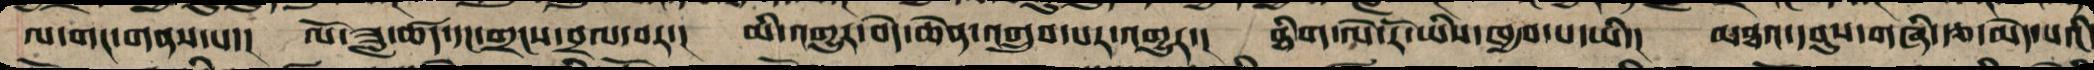ལ་གང་གནས་པ་། ལོ་ཟླ་ཚད་དང་གྲངས་བྲལ་བར་། མི་འགྱུར་བདེ་ཆེན་འགྲུབ་པར་འགྱུར་། ཐིག་ལེ་རོ་ཡིས་ཁྱབ་པ་ཡི་། མཐའ་དབུས་གཞི་རྩ་མེད་པའི
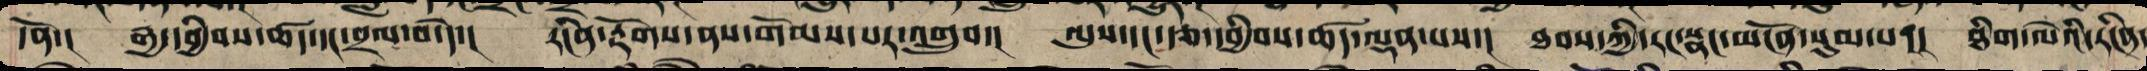དོན་། རྒྱ་དབྱིབས་ཚད་དང་བྲལ་བ་དེ་། རངིན་རྟོགས་ནས་གོམས་པར་འགྲུབ་། ལུས་དང་རྩ་དབྱིབས་ཚད་ལྡན་པས་། ཐབས་ཀྱི་རང་སྣང་མངོན་སུམ་པ་། ཐིག་ལེའི་རངིན་
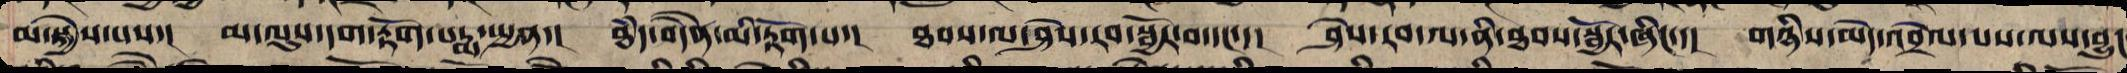མ་སྐྱེས་པས་། མ་ལུས་དག་རྟོགས་པདྨ་སྤྱན་། ཐཾད་བདཻན་མི་རྟོག་པ་། ཐབས་ལ་ཤེས་རབ་སྦྱོར་བ་དང་་། ཤེས་རབ་ལ་ནི་ཐབས་སྦྱོར་ཞིང་་། གཉིས་མེད་འབྲེལ་པས་ལས་བྱུང
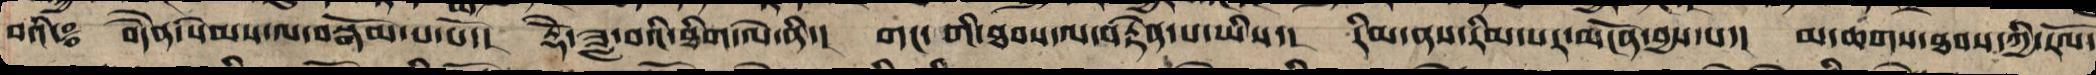བའི༔ བདཻན་སེམས་ལ་བསྒོམ་པ་པོ་། རྡོེ་ཟླ་བའི་ཐིག་ལེ་ནི་། གང་གི་ཐབས་ལ་བརྟེན་པ་ཡིས་། རིམ་ནས་རིམ་པར་མངོན་བྱས་པ་། མ་ཆགས་ཐབས་ཀྱི་རོལ་
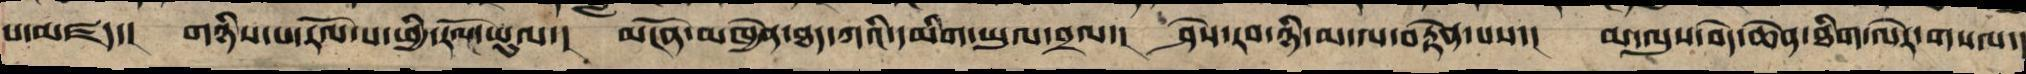པ་མཛད་། གཉིས་མེད་རོལ་པ་ཕྱི་རོལ་ཡུལ་། མངོན་མཁྱེན་ཐད་ཀའི་དམིག་ཡུལ་བྲལ་། ཤེས་རབ་ཉི་མ་ལ་བརྟེན་པས་། མ་ལུས་བདེ་ཆེན་ཐིག་ལེར་གསལ་།
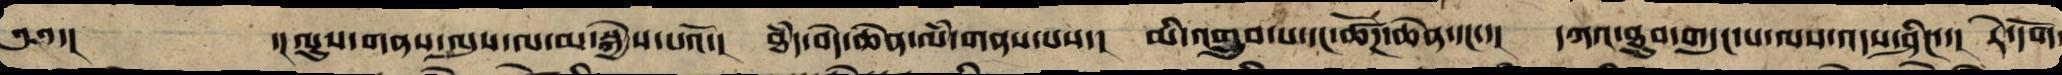༄༅་། ་།ལུས་གནས་ལུས་ལས་མ་སྐྱེས་པའོ་། ཐཾད་བདེ་ཆེན་ལམ་གནས་པས་། མི་འགྲུབ་པ་དང་ཚོཌ་ཆེན་དང་་། དཀའ་ཐུབ་གདུང་བ་ལས་འདས་ཤིང་་། རེ་དོག
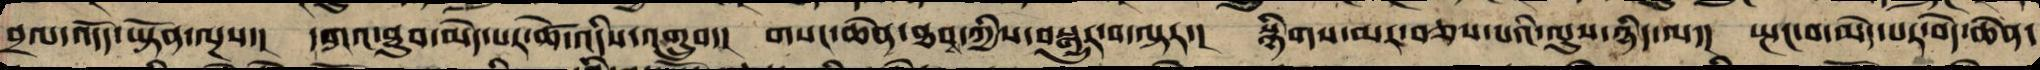བྲལ་འདོད་ཡྟོན་ལྔས་། དཀའ་ཐུབ་མེད་པར་ཚེ་འདིས་འགྲུབ་། གསང་ཆེན་ཐབས་ཀྱིས་བསྒྱུར་བ་ལྟར་། སྙིགས་མར་བཅས་པའི་ལུས་ཉིད་ནི་། སྤང་པ་མེད་པར་བདེ་ཆེན་
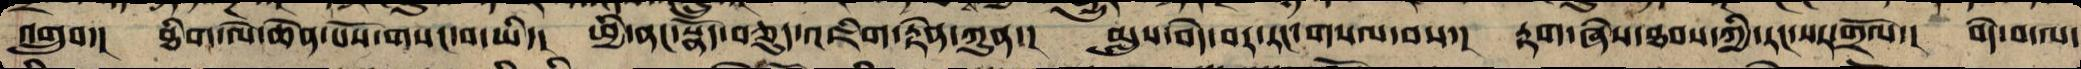འགྲུབ་། ཐིག་ལེ་ཆེན་པོས་གསང་བ་ཡི་། ཕྱི་ནང་སྣོད་བཅུད་འཇིག་རྟེན་ཀུན་། མུས་བདེ་བར་རང་གསལ་བས་། རྟགས་ཞེས་ཐབས་ཀྱིས་རང་སར་གྲོལ་། བདེ་བ་ལ་
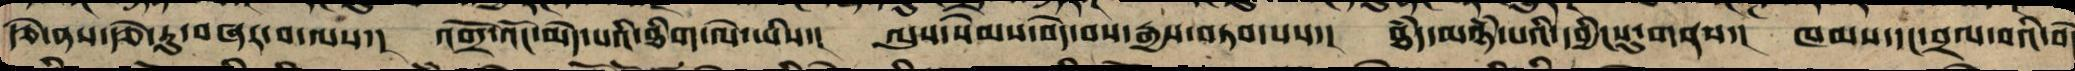རྩེ་ནས་རྩེ་རུ་བཞར་བ་ལ་། འགྲོ་འོང་མེད་པའི་ཐིག་ལེ་ཡིས་། ལུས་སེམས་བདེ་བས་རྒྱས་བཏབ་པས་། ཐཾད་མཉཾ་པའི་དབྱིངསུ་གནས་། ཁམས་དང་བྲལ་བའི་བདེ
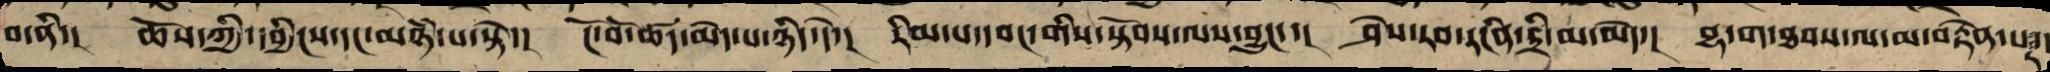བ་ནི་། ཆོས་ཀྱི་དབྱིངས་དང་མཉཾ་པ་སྟེ་། ངོ་བོ་ཚད་མེད་པ་ཉིད་དེ་། རིམ་པ་དབང་གི་སྟོབས་ལས་བྱུང་་། ཤེས་རབ་རངིན་དྲི་མེད་ལ་། བྷ་ག་ཐབས་ལ་མ་བརྟེན་པར་
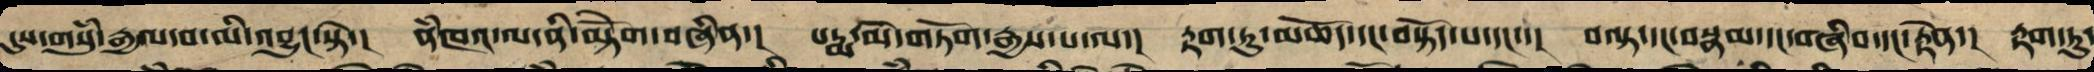དུས་གསུམ་རྒྱལ་བ་མི་འབྱུང་སྟེ་། ནཾཁའ་ལ་ནི་མྟེོག་བཞིན་། པདྨ་མེ་གཏོག་རྒྱས་པ་ལ་། རྟག་ཏུ་མཆོད་དང་བསྟོད་པ་དང་་། བལྟ་དང་བསྣམ་དང་གཞིབ་དང་རྟེན་། རྟག་ཏུ་
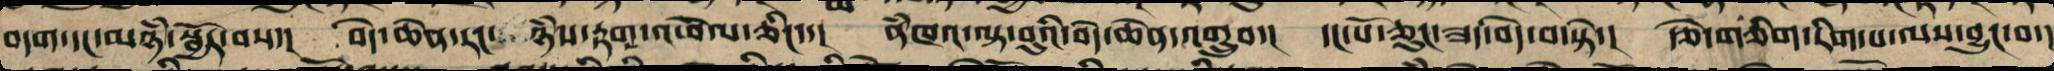བདག་དང་མཉཾ་སྦྱོར་བས་། བདེ་ཆེན་རང་ཉཾས་རྟག་འཕེལ་ཅིང་་། ནཾཁའ་ལྟ་བུའི་བདེ་ཆེན་འགྲུབ་། དང་པོ་ཅུང་ཟད་བདེ་བ་སྟེ་། རྩེ་གཅིག་རིག་པ་ལས་བྱུང་བ་།
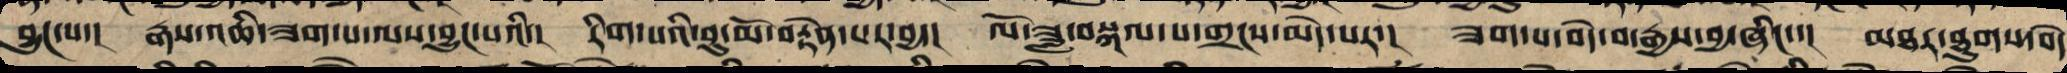བྱུང་བ་། རྒས་འཆི་ཟག་པ་ལས་བྱུང་བའི་། རིག་པའི་བུ་མོ་བརྟེན་པར་བྱ་། ལོ་ཟླ་བསྐལ་པ་གྲངས་མེད་པར་། ཟག་མེད་བདེ་བ་རྒྱས་བྱ་ཞིང་།་ མཐར་ཐུག་བདེ
